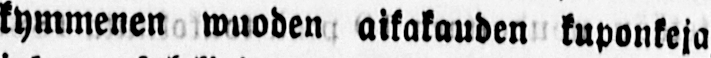kymmenen wuoden aikakauden kuponkeja
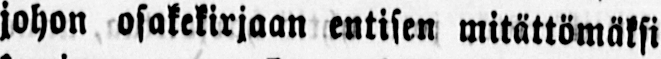johon osakekirjaan entisen mitättömäksi
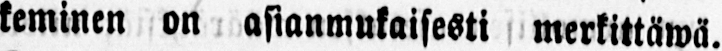keminen on asianmukaisesti merkittäwä.
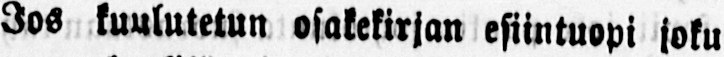Jos kuulutetun osakekirjan esiintuopi joku
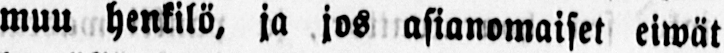muu henkilö, ja jos asianomaiset eiwät
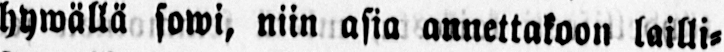hywällä sowi, niin asia annettakoon lailli-
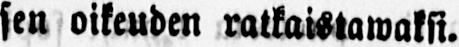sen oikeuden ratkaistawaksi.
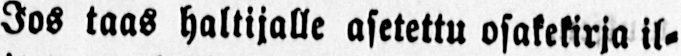Jos taas haltijalle asetettu osakekirja il-
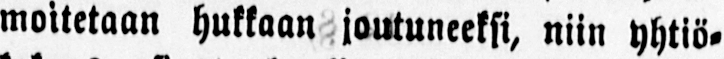moitetaan hukkaan joutuneeksi, niin yhtiö-
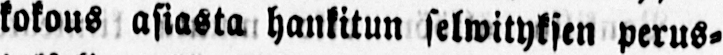kokous asiasta hankitun selwityksen perus-
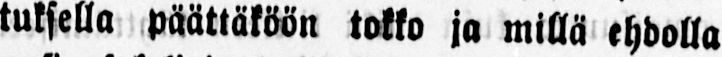tuksella päättäköön tokko ja millä ehdolla
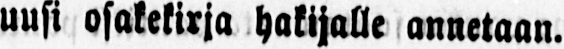uusi osakekirja hakijalle annetaan.
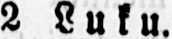2 Luku.
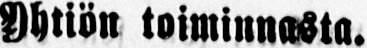Yhtiön toiminnasta.
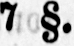7 §.
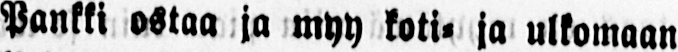Pankki ostaa ja myy koti- ja ulkomaan
